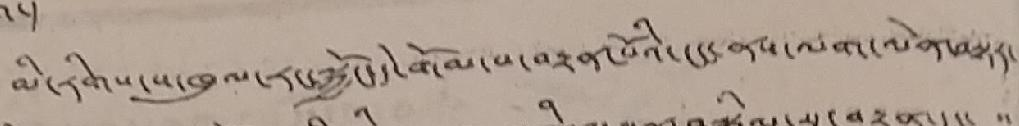མི་རིགས་ས་ཁུལ་རང་སྐྱོང་དེ་གོམ་པ་བསྟན་པོའི་ངང་ནས་ལག་ལེན་བསྟར་
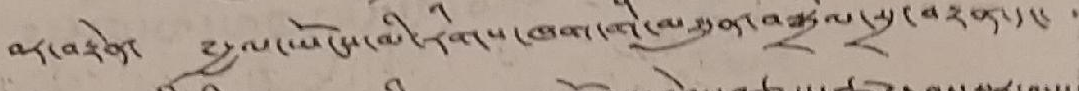བར་བརྟེན་ ༸རྒྱལ་ཡོངས་མི་རིགས་ཁག་གི་མཐུན་བསྒྲིལ་སྲ་བརྟན་དང་ ་་
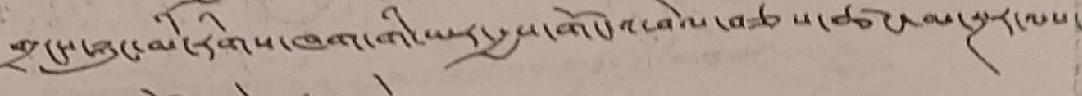གྲངས་ཉུང་མི་རིགས་ཁག་གི་ཡར་རྒྱས་གོང་འཕེལ་བཅས་ཚང་མ་སྔར་ལས་
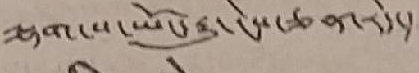ལྷག་པ་ཡོང་རྒྱུ་ངེས་ཅན་རེད་།
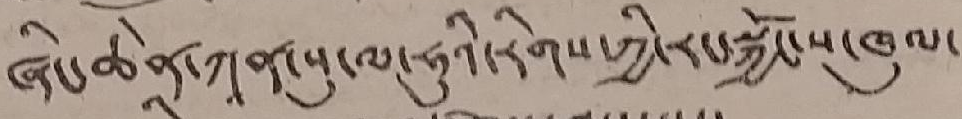ཞིངག་ཆེན་ཀཱན་སུ་ལ་ཧུའི་རིགས་ཀྱི་རང་སྐྱོང་ས་ཁུལ་
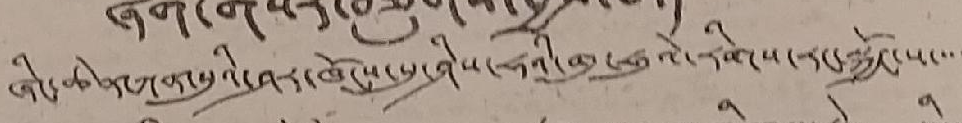ཞིང་ཆེན་ཀཱན་སུའི་ཤར་ཁོངས་སུ་ཤིས་ཧའི་ག་ཧུའེ་རིགས་རང་སྐྱོང་ས་་་་
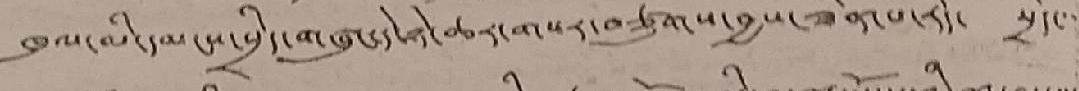ཁུལ་མི་དམངས་སྲིད་གཞུང་དེ་ཉེ་ཆར་གསར་བཙུགས་བྱས་ཟིན་ཟིན་པ་རེད་ སྲིད་་་
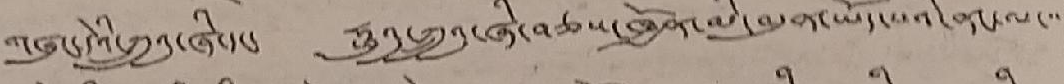གཞུང་དེའི་ཀྲུའུ་ཞི་དང་ ཧྥུའུ་ཀྲུའུ་ཞི་བཅས་ཁྱོན་མི་བདུན་ཡོད་པའི་ནང་ལ་་་་
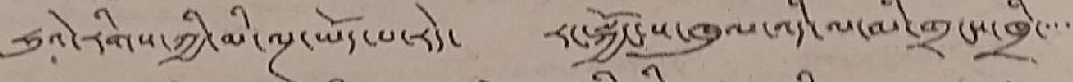ཧུའེ་རིགས་ཀྱི་མི་ལྔ་ཡོད་པ་རེད་ རང་སྐྱོང་ས་ཁུལ་འདི་ལ་མི་གྲངས་ཁྲི་་་་
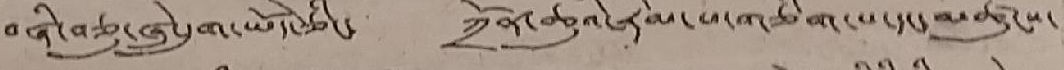བཞི་བཅུ་ཞེ་དྲུག་ཡོད་ཅིང་ ཀྲོན་ཆུའི་རིམ་པ་གཅིག་པ་དང་མཚུངས་
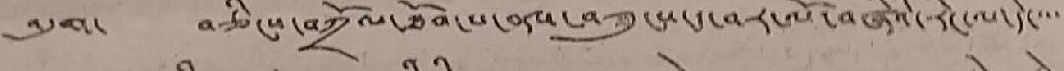འདུག་ བཅིངས་བཀྲོལ་ཐོབ་པ་ནས་བཟུངས་ད་བར་ལོ་བཞིའི་རིང་ལ་དེ་་་་་
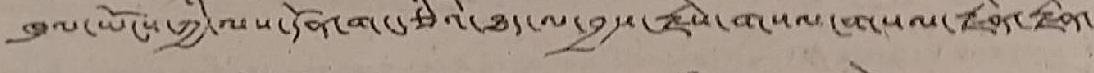ཁུལ་ཡོངས་ཀྱི་ལས་དོན་གང་ཅིའི་ཐད་ལ་བྱས་རྗེས་གསལ་གསལ་རྗེན་རྗེན་
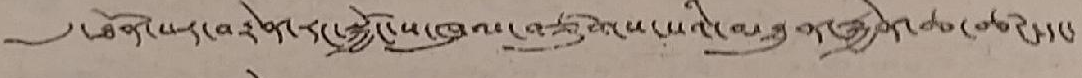དུ་ཐོན་པར་བརྟེན་རང་སྐྱོང་ས་ཁུལ་བཙུགས་པའི་མཐུན་རྐྱེན་ཆ་ཚང་དང་
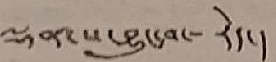ལྡན་པ་བྱུང་བ་-རེད་།
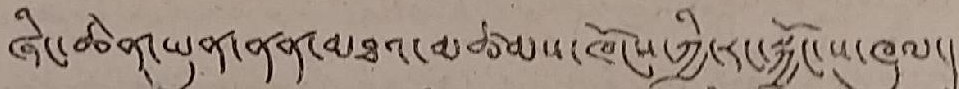ཞིང་ཆེན་ཡུན་ནན་མཐའ་མཚམས་ཁོངས་ཀྱི་རང་སྐྱོང་ས་ཁུལ་།
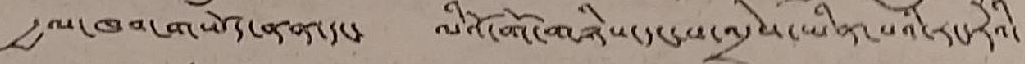རྒྱལ་ཁབ་གཡོད་ནན་དང་ ལིའོ་གོ་གཉིས་དང་ས་འདྲེས་ཡིན་པའི་རང་རེའི་
